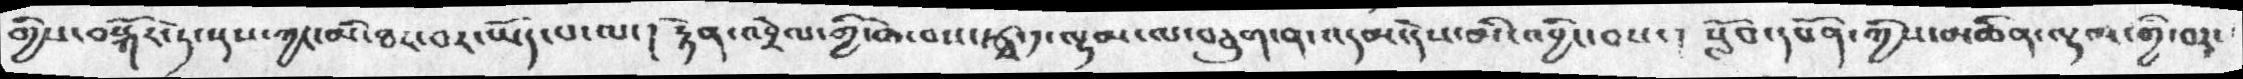གྱིས་བསྐོར་ཏེ་སས་ཀྱང་མི་ཐར་བར་ཡོད་པ་ལ་། རྟེན་འབྲེལ་གྱི་ཆེ་བས་རྩྭ་༡་ལྷམ་ལ་བཅུག་ན་འདམ་ེས་མི་འབྱིང་བས་། སློབ་དཔོན་ཀྱིས་མཆིན་ལྷམ་གྱི་བར་
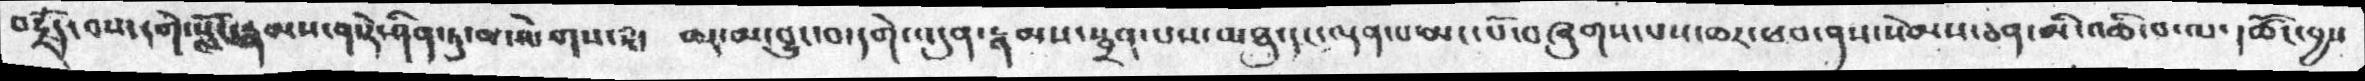བརྗོད་པས་དགེ་སློང་རྣམས་ན་རེ་ཤིན་ཏུ་མ་ལེགས་སཾ། ཆར་མ་བྱུང་བ་དགེ་འདུན་རྣམས་སྦྲན་པས་མཐུ་དང་ལྡན་པ་མང་པོ་བཞུགས་པས་ཆར་ཕབ་ནས་སེམས་ཅན་མི་འཆི་བ་ལ་། ཚོང་བྱས་
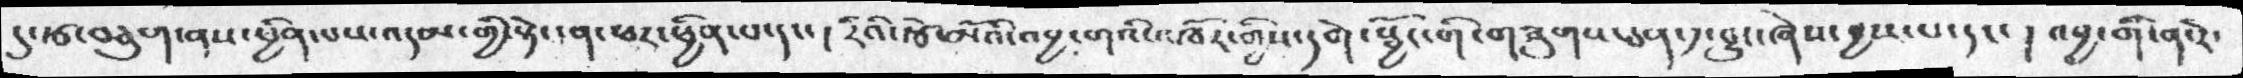དུ་རྩ་བཅུག་ནས་ཕྱིན་པས་འདམ་གྱི་སྟེང་ན་ཕར་ཕྱིན་པ་དང། རིའི་རྩེ་མོའི་འབྱ་གའི་འཁོར་གྱིས་དགེ་སྦྱོང་གི་གཟུགས་ཅན་༡་བྱུང་ཞེས་བྱས་པ་དང་། འབྱ་གི་ན་རེ་
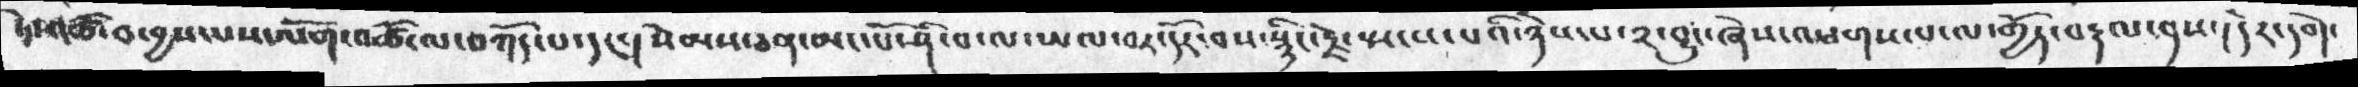ཏེ་གཚོ་བ་བྱས་པས་ལོགའཚོ་ལ་བཀོད་པ་དང་།   སེམས་ཅན་མང་པོ་ཤི་བ་ལ་ཡལ་བར་དོར་བས་སྙིང་རྗེ་སྤངས་པའི་ཉེས་པ་༢་བྱུང་ཞེས་འཕགས་པ་ལ་གྱོད་བརྡལ་ནས་།དེར་དགེ་
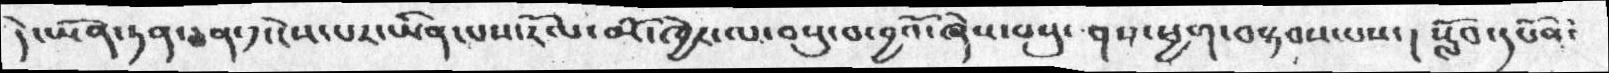དེ་ཡོན་ཏན་ཅན་༡་ངེས་པར་ཡིན་པས་རོལ་མོ་ཁྱེར་ལ་བསུ་བ་བྱའོ་ཞེས་བསུ་ནས་ཕྱག་བསྟབས་པས། སློབ་དཔོན་
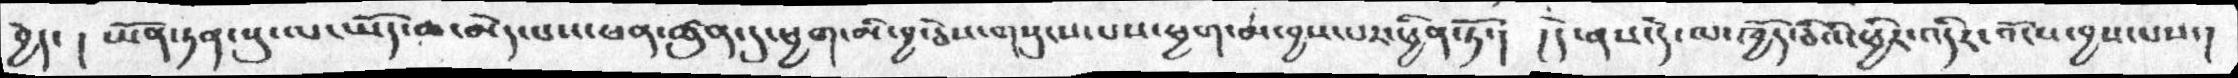བྱེད་ ། ཡོན་ཏན་སུ་ལ་ཡོད་ཆ་མེད་པས་ཕན་ཚུན་དུ་ཕྱག་མི་བྱ་ཅེས་གསུངས་པས་ཕྱག་མ་བྱས་པར་ཕྱིན་ཏོ་། ། དེ་ནས་དེ་ལ་ཁྱོད་ཅིའི་ཕྱིར་འདིར་འོངས་བྱས་པས་།
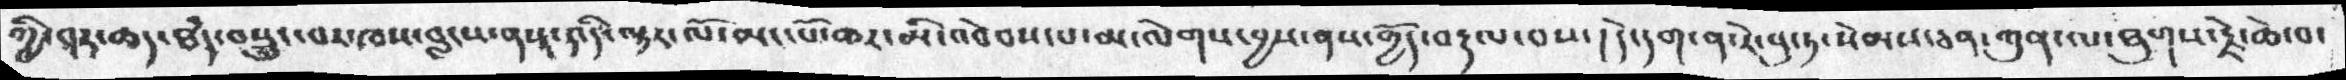གྱི་བར་ཆད་ཐམས་ཅད་བསྲུང་བར་ཁས་བླངས་ནས་འདི་ལྟར་ལོ་མང་པོ་ཆར་མི་འབེབས་པས་མ་ལེགས་བྱས་ནས་གྱོད་བརྡལ་བས་། ། དེ་དག་ན་རེ་པུ་ཏ་སེམས་ཅན་ཀུན་ལ་ཐུགས་རྗེ་ཆེ་བ་
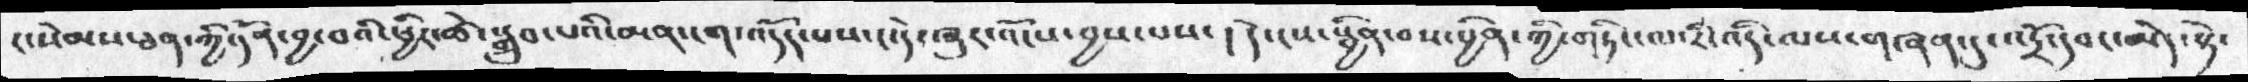ང་སེམས་ཅན་ཀྱི་དོན་བྱ་བའི་ཕྱིར་ཚེ་སྒྲུབ་པའི་མན་ངག་འདོད་པས་ང་དེ་ཞུར་འོངས་བྱས་པས་།  དེ་ངས་སྦྱིན་བས་པྱིན་ཀྱི་གཏིང་ལ་རི་འདི་ལས་གཞན་དུ་འདྲོ་དབང་མེད་སྟེ་
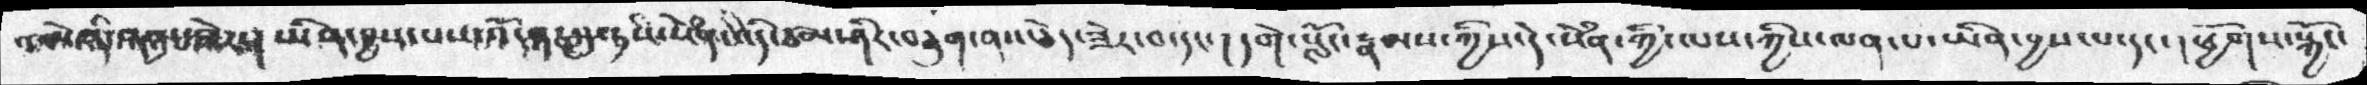མེ་འདི་གཉན་ཟེར་།    ཡིན་བྱ་ངང་པས་འདོཀར་དུ་ཏསི་སེཾན་འདོ་ཙམ་ཤིར་བཅུག་ནས་ཅེད་ཟེར་བ་དང་།   དགེ་སློང་རྣམས་ཀྱིས་དེ་སེཾན་ཀྱི་ལས་ཀྱིས་ལན་པ་ཡིན་བྱས་པ་དང་།   ཕྱོགས་སྐྱོང་
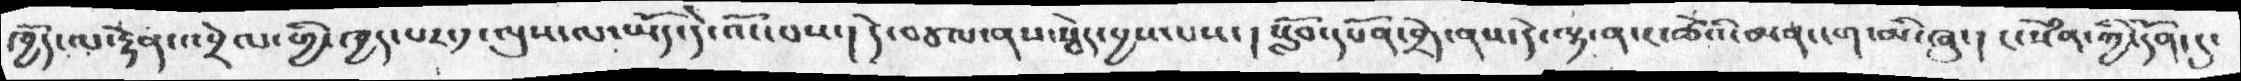ཁྱོད་ལ་རྟེན་འབྲེལ་གྱི་ཁྱད་པར་དུ་ལུས་ལ་ཡོད་དེ་འོང་པས་། དེ་བཙལ་ནས་སྦེད་བྱས་པས་།  སློབ་དཔོན་བྲེད་ནས་དེ་ལྟ་ན་ང་ཚོའི་མན་ངག་མི་ཞུ་། ང་སེཾན་ཀྱི་དོན་དུ་
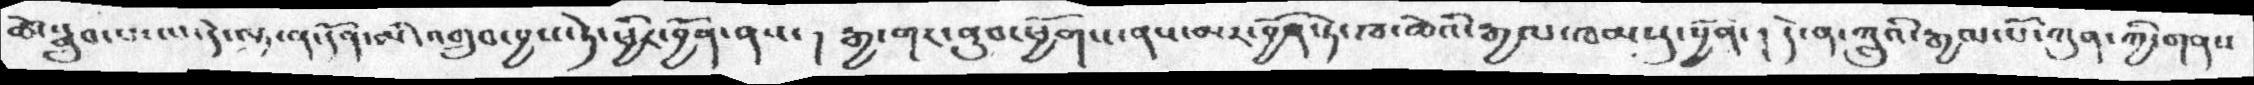ཚེ་སྒྲུབ་པ་ལ་དེ་ལྟ་ན་དོན་མི་འགྲུབ་བྱས་ཏེ་ཕྱིར་བྱོན་ནས་། རྒྱ་གར་ནུབ་ཕྱོགས་ནས་མར་བྱོན་ཏེ་ཁ་ཆེའི་རྒྱལ་ཁམསུ་བྱོན། དེ་ན་ཀླུའི་རྒྱལ་པོ་ཀུན་ཀྱི་གནས་
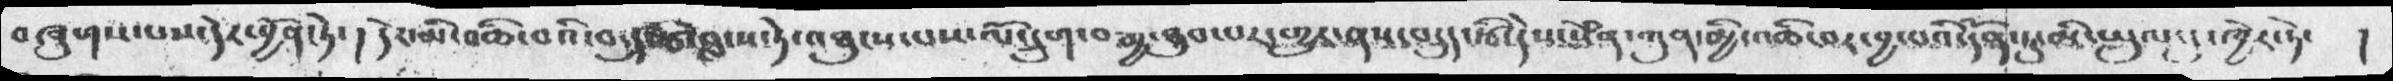བཞུགས་པས་དེར་བྱོན་ཏེ་། དེར་མི་འཆི་བའི་བདུད་རྩི་བླངས་དེ་འཐུངས་པས་ལོ་དྲུག་བརྒྱ་ཐུབ་པར་གྱུར་ནས་བདུད་རྩི་དེས་སེམན་ཀུན་གྱི་འཆི་བར་བྱ་བའི་དོན་དུ་མི་ཡུལ་དུ་ཁྱེར་དེ་།
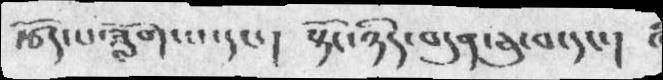རྩོད་པ་ཟློག་པ་དང་། སྟོང་ཉིད་བདུན་ཅུ་བ་དང་།
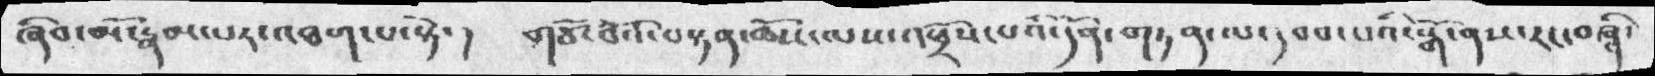ཞིབ་མོ་རྣམ་པར་འཐག་པ་སྟེ་།    གཙོ་བོས་བསྟན་ཆོས་ལས་འཕྲོས་པའི་དོན་གཏན་ལ་དབབ་པའི་སྒོ་ནས་རང་བཞིན་
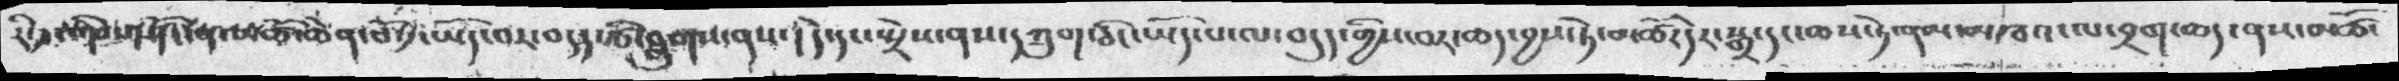རི་འདབས་གཤོང་ན་མཚོ་ཆེན་པོ་༡་ཡོད་པར་བདུད་རྩི་བླུགས་ནས་།  དེ་དང་སྤྲོས་ནས་དཀྲུག་ཅིང་ཡོད་པ་ལ་བདུད་གྱིས་བར་ཆད་བྱས་ཏེ་མཚོར་དེར་སྒྲ་དང་ཆས་ཏེ་ནམ་མཁའ་ལ་བྲག་ཆད་ནས་མཚོ་
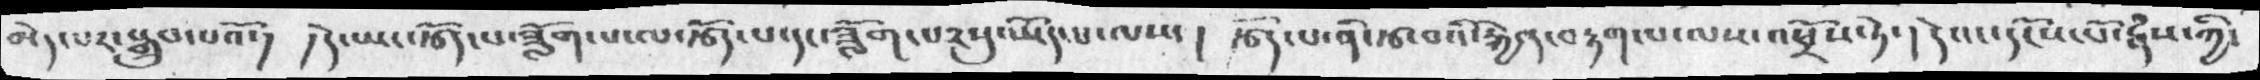མེད་པར་སྒྲུབ་པའོ་། ་ ། དེ་ཡང་རྩོད་པ་ཟློག་པ་ལ་རྩོད་པ་དང་ཟློག་པ༢་སུ་ཡོད་པ་ལས་ ། རྩོད་ོཔ་ནི་རྩ་བའི་རྐྱེན་བརྟག་པ་ལས་འཕྲོས་ཏེ་ ། དེ་འང་དངོས་པོ་རྣཾས་ཀྱི་
